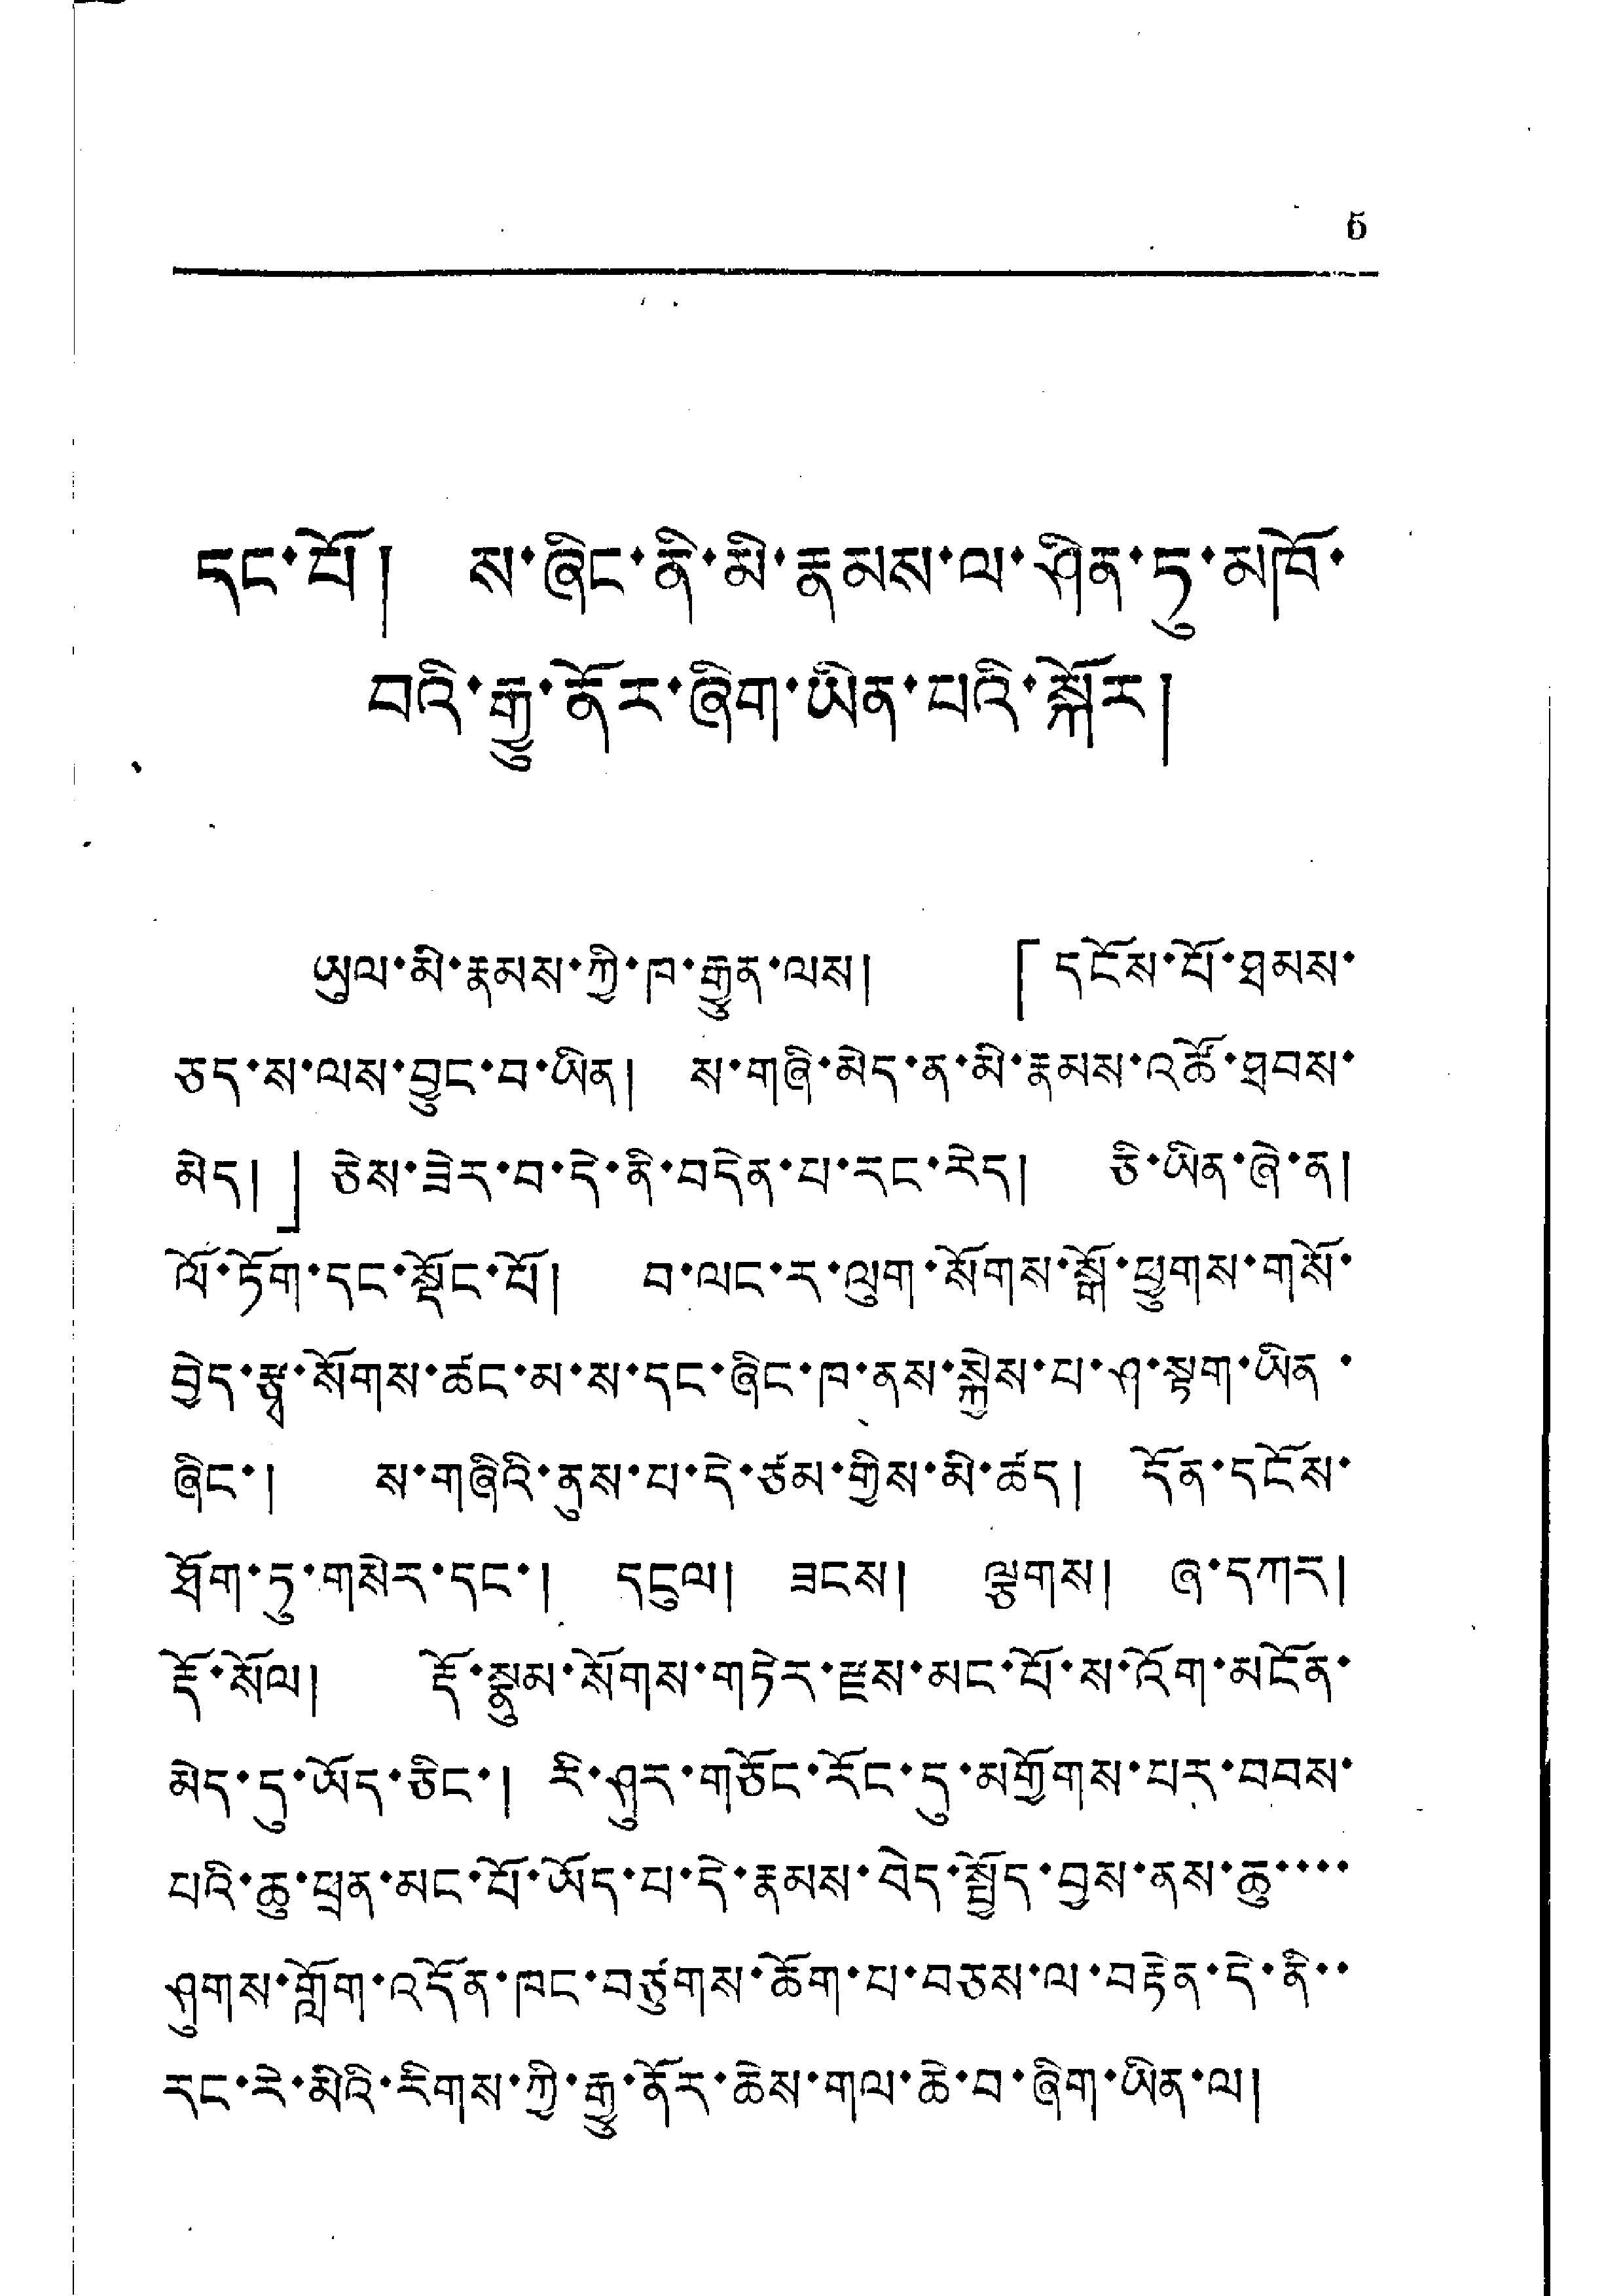5
དང་པོ། ས་ཞིང་ནི་མི་རྣམས་ལ་ཤིན་ཏུ་མཁོ་
བའི་རྒྱུ་ནོར་ཞིག་ཡིན་པའི་སྐོར།
ཡུལ་མི་རྣམས་ཀྱི་ཁ་རྒྱུན་ལས། 「དངོས་པོ་ཐམས་
ཅད་ས་ལས་བྱུང་བ་ཡིན། ས་གཞི་མེད་ན་མི་རྣམས་འཚོ་ཐབས་
མེད།」ཅེས་ཟེར་བ་དེ་ནི་བདེན་པ་རང་རེད། ཅི་ཡིན་ཞེ་ན།
ལོ་ཏོག་དང་སྡོང་པོ། བ་ལང་ར་ལུག་སོགས་སྒོ་ཕྱུགས་གསོ་
བྱེད་རྩྭ་སོགས་ཚང་མ་ས་དང་ཞིང་ཁ་ནས་སྐྱེས་པ་ཤ་སྟག་ཡིན་
ཞིང་། ས་གཞིའི་ནུས་པ་དེ་ཙམ་གྱིས་མི་ཚད། དོན་དངོས་
ཐོག་ཏུ་གསེར་དང་། དངུལ། ཟངས། ལྕགས། ཞ་དཀར།
རྡོ་སོལ། རྡོ་སྣུམ་སོགས་གཏེར་རྫས་མང་པོ་ས་འོག་མངོན་
མེད་དུ་ཡོད་ཅིང་། རི་ཤུར་གཅོང་རོང་དུ་མགྱོགས་པར་བབས་
པའི་ཆུ་ཕྲན་མང་པོ་ཡོད་པ་དེ་རྣམས་བེད་སྤྱོད་བྱས་ནས་ཆུ་་་་
ཤུགས་ཀློག་འདོན་ཁང་བཙུགས་ཆོག་པ་བཅས་ལ་བརྟེན་དེ་ནི་་
རང་རེ་མིའི་རིགས་ཀྱི་རྒྱུ་ནོར་ཆེས་གལ་ཆེ་བ་ཞིག་ཡིན་ལ།
